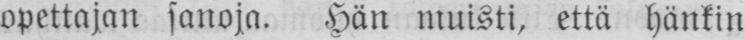opettajan sanoja. Hän muisti, että hänkin
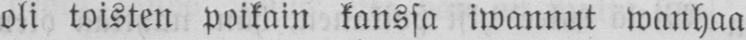oli toisten poikain kanssa iwannut wanhaa
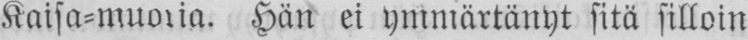Kaisa-muoria. Hän ei ymmärtänyt sitä silloin
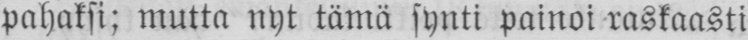pahaksi; mutta nyt tämä synti painoi raskaasti
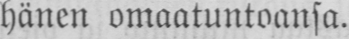hänen omaatuntoansa.
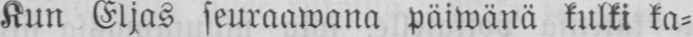Kun Eljas seuraawana päiwänä kulki ka-
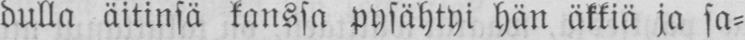dulla äitinsä kanssa pysähtyi hän äkkiä ja sa-
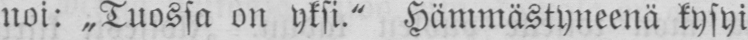noi: ˶Tuossa on yksi." Hämmästyneenä kysyi
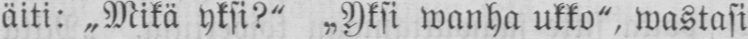äiti: ˶Mikä yksi?" „Yksi wanha ukko", wastasi
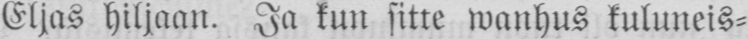Eljas hiljaan. Ja kun sitte wanhus kuluneis-
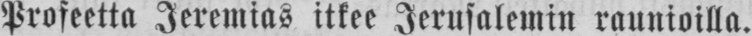Profeetta Jeremias itkee Jerusalemin raunioilla.
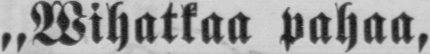„Wihatkaa pahaa,
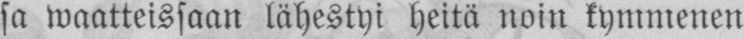sa waatteissaan lähestyi heitä noin kymmenen
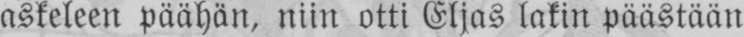askeleen päähän, niin otti Eljas lakin päästään
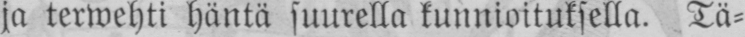ja terwehti häntä suurella kunnioituksella. Tä-
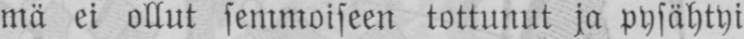mä ei ollut semmoiseen tottunut ja pysähtyi
